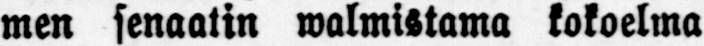men senaatin walmistama kokoelma
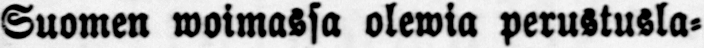Suomen woimassa olewia perustusla-
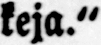keja."
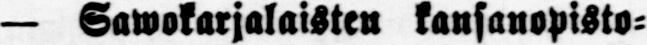— Savokarjalaisten kansanopisto-
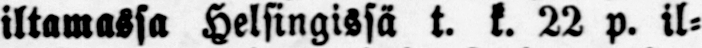iltamassa Helsingissä t. k. 22 p. il-
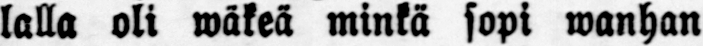lalla oli wäkeä minkä sopi wanhan
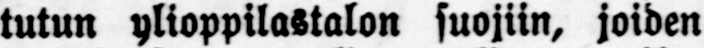tutun ylioppilastalon suojiin, joiden
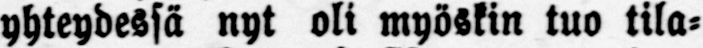yhteydessä nyt oli myöskin tuo tila-
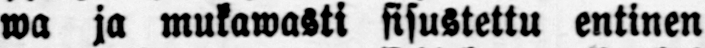wa ja mukawasti sisustettu entinen
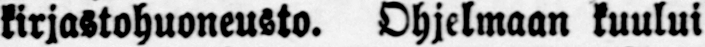kirjastohuoneusto. Ohjelmaan kuului
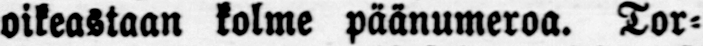oikeastaan kolme päänumeroa. Tor-
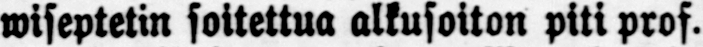wiseptetin soitettua alkusoiton piti prof.
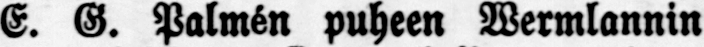E. G. Palmén puheen Wermlannin
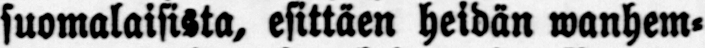suomalaisista, esittäen heidän wanhem-
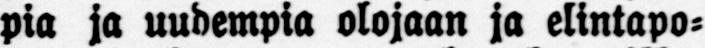pia ja uudempia olojaan ja elintapo-
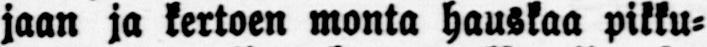jaan ja kertoen monta hauskaa pikku-
